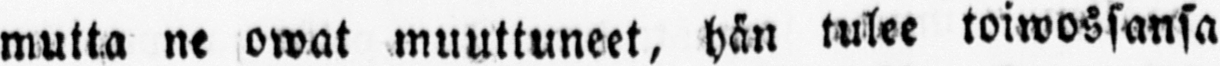mutta ne owat muuttuneet, hän tulee toiwossansa
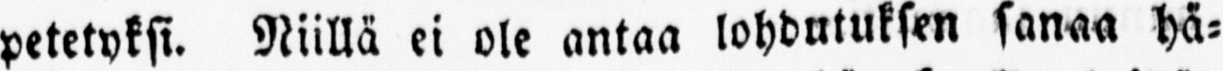petetyksi. Niillä ei ole antaa lohdutuksen sanaa hä-
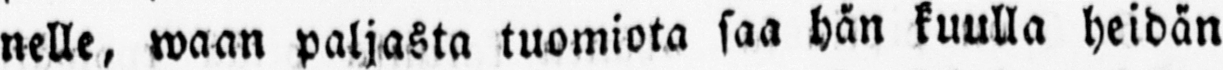nelle, waan paljasta tuomiota saa hän kuulla heidän
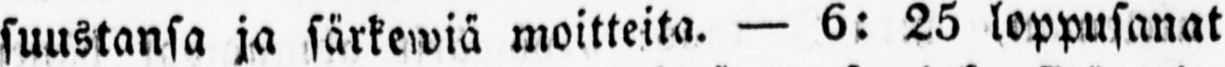suustansa ja särkewiä moitteita. — 6: 25 loppusanat
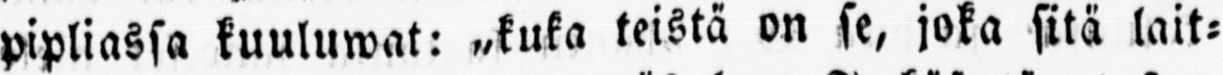pipliassa kuuluwat: „kuka teistä on se, joka sitä lait-
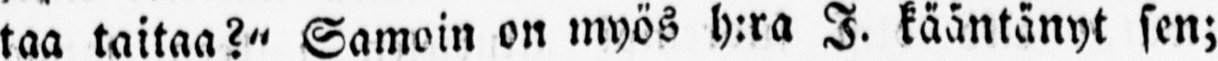taa taitaa?" Samoin on myös h:ra I. kääntänyt sen;
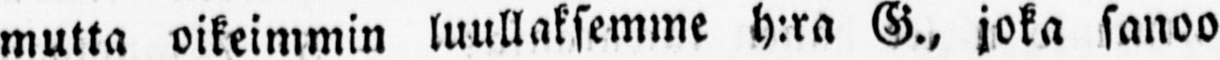mutta oikeimmin luullaksemme h:ra G., joka sanoo
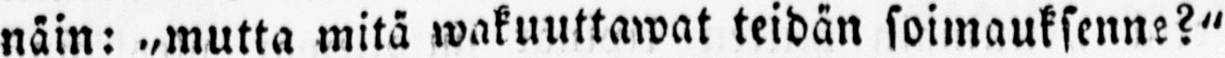näin: „mutta mitä wakuuttawat teidän soimauksenne?"
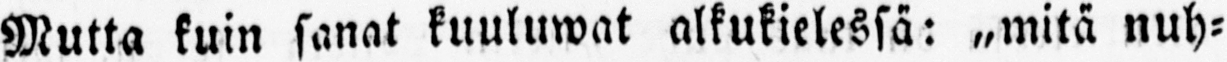Mutta kuin sanat kuuluwat alkukielessä: „mitä nuh-
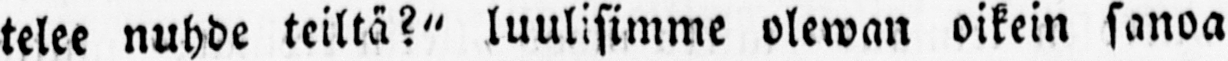telee nuhde teiltä?" luulisimme olewan oikein sanoa
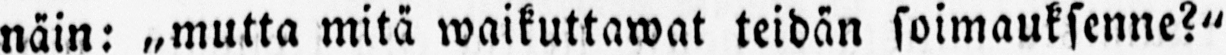näin: „mutta mitä waikuttawat teidän soimauksenne?"
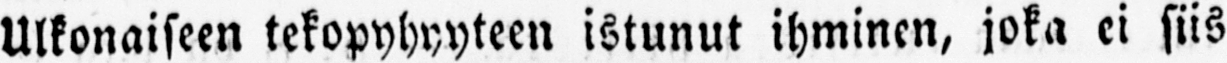Ulkonaiseen tekopyhyyteen istunut ihminen, joka ei siis
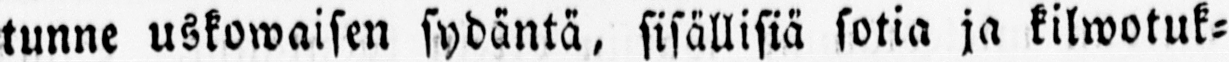tunne uskowaisen sydäntä, sisällisiä sotia ja kilwotuk-
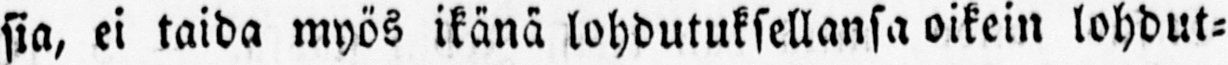sia, ei taida myös ikänä lohdutuksellansa oikein lohdut-
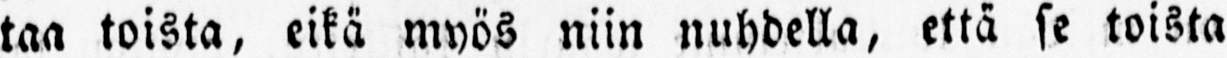taa toista, eikä myös niin nuhdella, että se toista
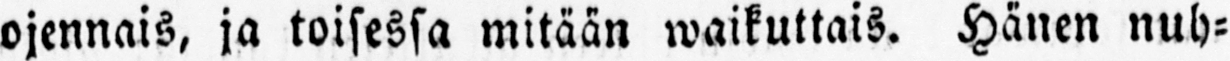ojennais, ja toisessa mitään waikuttais. Hänen nuh-
